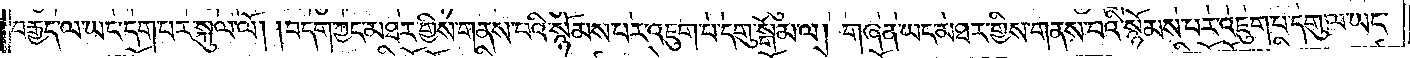བརྒྱད་ལ་ཡང་དག་པར་སྐུལ་ལོ། །བདག་ཀྱང་མཐར་གྱིས་གནས་པའི་སྙོམས་པར་འཇུག་པ་དགུ་སྒོམ་ལ། གཞན་ཡང་མཐར་གྱིས་གནས་པའི་སྙོམས་པར་འཇུག་པ་དགུ་ལ་ཡང་
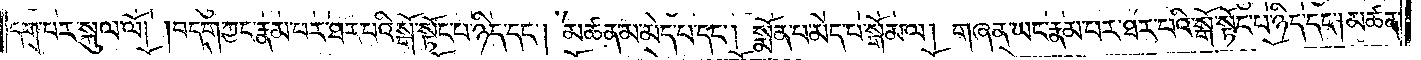དག་པར་སྐུལ་ལོ། །བདག་ཀྱང་རྣམ་པར་ཐར་པའི་སྒོ་སྟོང་པ་ཉིད་དང༌། མཚན་མ་མེད་པ་དང༌། སྨོན་པ་མེད་པ་སྒོམ་ལ། གཞན་ཡང་རྣམ་པར་ཐར་པའི་སྒོ་སྟོང་པ་ཉིད་དང༌། མཚན་
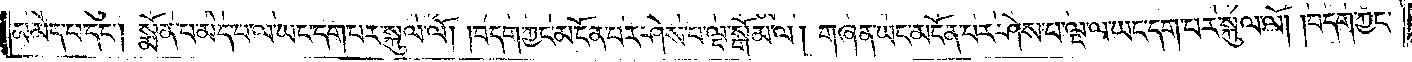མ་མེད་པ་དང༌། སྨོན་པ་མེད་པ་ལ་ཡང་དག་པར་སྐུལ་ལོ། །བདག་ཀྱང་མངོན་པར་ཤེས་པ་ལྔ་སྒོམ་ལ། གཞན་ཡང་མངོན་པར་ཤེས་པ་ལྔ་ལ་ཡང་དག་པར་སྐུལ་ལོ། །བདག་ཀྱང་
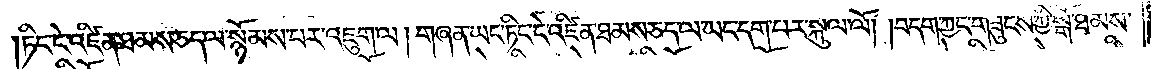ཏིང་ངེ་འཛིན་ཐམས་ཅད་ལ་སྙོམས་པར་འཇུག་ལ། གཞན་ཡང་ཏིང་ངེ་འཛིན་ཐམས་ཅད་ལ་ཡང་དག་པར་སྐུལ་ལོ། །བདག་ཀྱང་གཟུངས་ཀྱི་སྒོ་ཐམས་
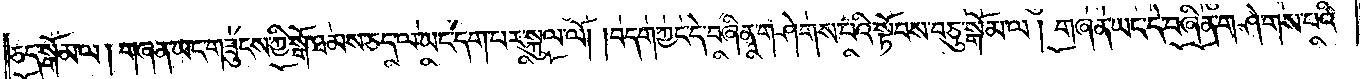ཅད་སྒོམ་ལ། གཞན་ཡང་གཟུངས་ཀྱི་སྒོ་ཐམས་ཅད་ལ་ཡང་དག་པར་སྐུལ་ལོ། །བདག་ཀྱང་དེ་བཞིན་གཤེགས་པའི་སྟོབས་བཅུ་སྒོམ་ལ། གཞན་ཡང་དེ་བཞིན་གཤེགས་པའི་
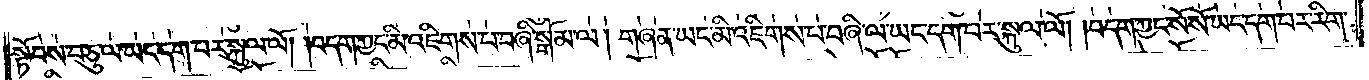སྟོབས་བཅུ་ལ་ཡང་དག་པར་སྐུལ་ལོ། །བདག་ཀྱང་མི་འཇིགས་པ་བཞི་སྒོམ་ལ། གཞན་ཡང་མི་འཇིགས་པ་བཞི་ལ་ཡང་དག་པར་སྐུལ་ལོ། །བདག་ཀྱང་སོ་སོ་ཡང་དག་པར་རིག་
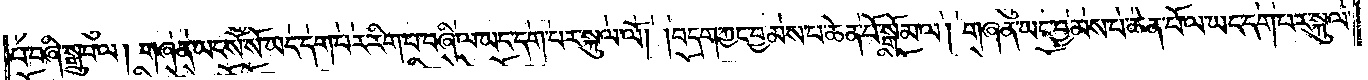པ་བཞི་སྒྲུབ་ལ། གཞན་ཡང་སོ་སོ་ཡང་དག་པར་རིག་པ་བཞི་ལ་ཡང་དག་པར་སྐུལ་ལོ། །བདག་ཀྱང་བྱམས་པ་ཆེན་པོ་སྒོམ་ལ། གཞན་ཡང་བྱམས་པ་ཆེན་པོ་ལ་ཡང་དག་པར་སྐུལ་
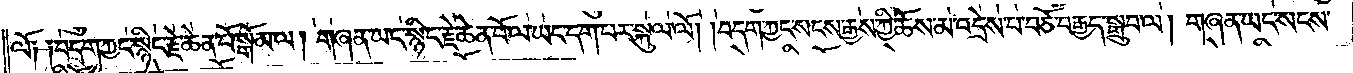ལོ༑ ༑བདག་ཀྱང་སྙིང་རྗེ་ཆེན་པོ་སྒོམ་ལ། གཞན་ཡང་སྙིང་རྗེ་ཆེན་པོ་ལ་ཡང་དག་པར་སྐུལ་ལོ། །བདག་ཀྱང་སངས་རྒྱས་ཀྱི་ཆོས་མ་འདྲེས་པ་བཅོ་བརྒྱད་སྒྲུབ་ལ། གཞན་ཡང་སངས་
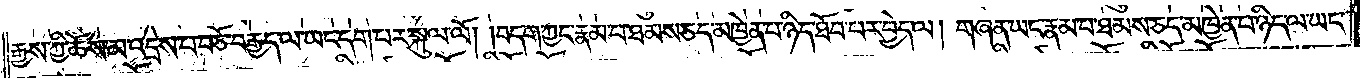རྒྱས་ཀྱི་ཆོས་མ་འདྲེས་པ་བཅོ་བརྒྱད་ལ་ཡང་དག་པར་སྐུལ་ལོ། །བདག་ཀྱང་རྣམ་པ་ཐམས་ཅད་མཁྱེན་པ་ཉིད་ཐོབ་པར་བྱེད་ལ། གཞན་ཡང་རྣམ་པ་ཐམས་ཅད་མཁྱེན་པ་ཉིད་ལ་ཡང་
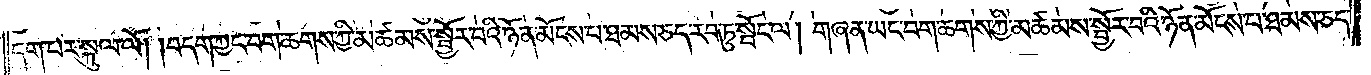དག་པར་སྐུལ་ལོ། །བདག་ཀྱང་བག་ཆགས་ཀྱི་མཚམས་སྦྱོར་བའི་ཉོན་མོངས་པ་ཐམས་ཅད་རབ་ཏུ་སྤོང་ལ། གཞན་ཡང་བག་ཆགས་ཀྱི་མཚམས་སྦྱོར་བའི་ཉོན་མོངས་པ་ཐམས་ཅད་
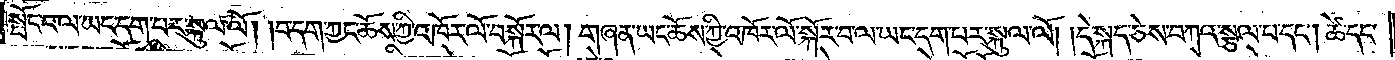སྤོང་བ་ལ་ཡང་དག་པར་སྐུལ་ལོ། །བདག་ཀྱང་ཆོས་ཀྱི་འཁོར་ལོ་བསྐོར་ལ། གཞན་ཡང་ཆོས་ཀྱི་འཁོར་ལོ་སྐོར་བ་ལ་ཡང་དག་པར་སྐུལ་ལོ། །དེ་སྐད་ཅེས་བཀའ་སྩལ་པ་དང༌། ཚེ་དང་
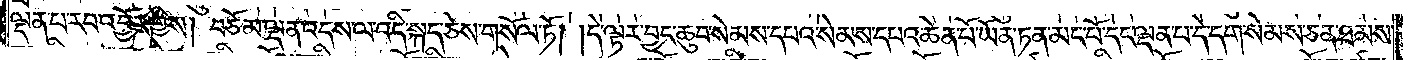ལྡན་པ་རབ་འབྱོར་གྱིས། བཅོམ་ལྡན་འདས་ལ་འདི་སྐད་ཅེས་གསོལ་ཏོ། །དེ་ལྟར་བྱང་ཆུབ་སེམས་དཔའ་སེམས་དཔའ་ཆེན་པོ་ཡོན་ཏན་མང་པོ་དང་ལྡན་པ་དེ་དག་སེམས་ཅན་ཐམས་
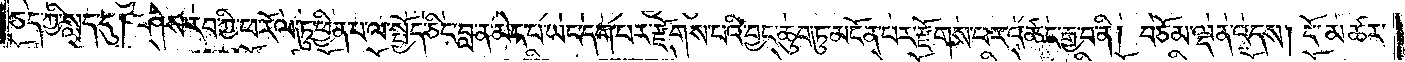ཅད་ཀྱི་སླད་དུ། ཤེས་རབ་ཀྱི་ཕ་རོལ་ཏུ་ཕྱིན་པ་ལ་སྤྱོད་ཅིང་བླ་ན་མེད་པ་ཡང་དག་པར་རྫོགས་པའི་བྱང་ཆུབ་ཏུ་མངོན་པར་རྫོགས་པར་འཚང་རྒྱ་བ་ནི། བཅོམ་ལྡན་འདས། ངོ་མཚར་
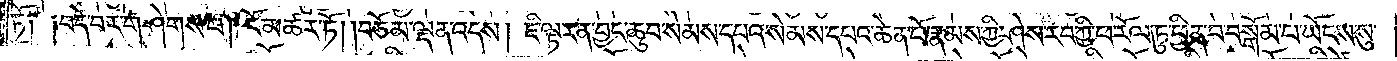ཏོ༑ ༑བདེ་བར་གཤེགས་པ། ངོ་མཚར་ཏོ། །བཅོམ་ལྡན་འདས། ཇི་ལྟར་ན་བྱང་ཆུབ་སེམས་དཔའ་སེམས་དཔའ་ཆེན་པོ་རྣམས་ཀྱི་ཤེས་རབ་ཀྱི་ཕ་རོལ་ཏུ་ཕྱིན་པ་བསྒོམ་པ་ཡོངས་སུ་
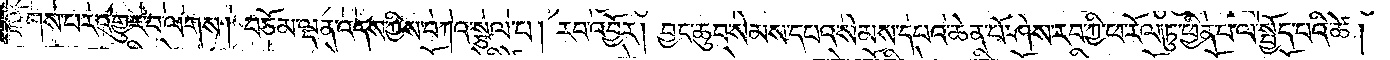རྫོགས་པར་འགྱུར་བ་ལགས། བཅོམ་ལྡན་འདས་ཀྱིས་བཀའ་སྩལ་པ། རབ་འབྱོར། བྱང་ཆུབ་སེམས་དཔའ་སེམས་དཔའ་ཆེན་པོ་ཤེས་རབ་ཀྱི་ཕ་རོལ་ཏུ་ཕྱིན་པ་ལ་སྤྱོད་པའི་ཚེ།
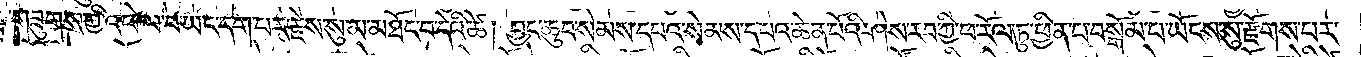གཟུགས་ཀྱི་འཕེལ་བ་ཡང་དག་པར་རྗེས་སུ་མ་མཐོང་བ་དེའི་ཚེ། བྱང་ཆུབ་སེམས་དཔའ་སེམས་དཔའ་ཆེན་པོའི་ཤེས་རབ་ཀྱི་ཕ་རོལ་ཏུ་ཕྱིན་པ་བསྒོམ་པ་ཡོངས་སུ་རྫོགས་པར་
